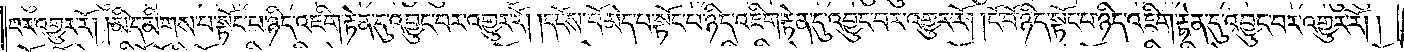བར་འགྱུར་རོ། །མི་དམིགས་པ་སྟོང་པ་ཉིད་འཇིག་རྟེན་དུ་འབྱུང་བར་འགྱུར་རོ། །དངོས་པོ་མེད་པ་སྟོང་པ་ཉིད་འཇིག་རྟེན་དུ་འབྱུང་བར་འགྱུར་རོ། །ངོ་བོ་ཉིད་སྟོང་པ་ཉིད་འཇིག་རྟེན་དུ་འབྱུང་བར་འགྱུར་རོ། །
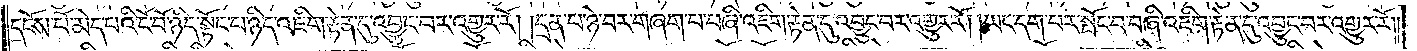དངོས་པོ་མེད་པའི་ངོ་བོ་ཉིད་སྟོང་པ་ཉིད་འཇིག་རྟེན་དུ་འབྱུང་བར་འགྱུར་རོ། །དྲན་པ་ཉེ་བར་གཞག་པ་བཞི་འཇིག་རྟེན་དུ་འབྱུང་བར་འགྱུར་རོ། །ཡང་དག་པར་སྤོང་བ་བཞི་འཇིག་རྟེན་དུ་འབྱུང་བར་འགྱུར་རོ༎
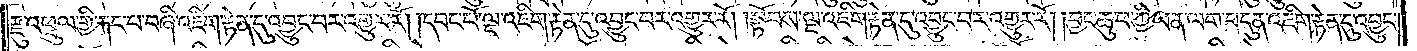རྫུ་འཕྲུལ་གྱི་རྐང་པ་བཞི་འཇིག་རྟེན་དུ་འབྱུང་བར་འགྱུར་རོ། །དབང་པོ་ལྔ་འཇིག་རྟེན་དུ་འབྱུང་བར་འགྱུར་རོ། །སྟོབས་ལྔ་འཇིག་རྟེན་དུ་འབྱུང་བར་འགྱུར་རོ། །བྱང་ཆུབ་ཀྱི་ཡན་ལག་བདུན་འཇིག་རྟེན་དུ་འབྱུང་
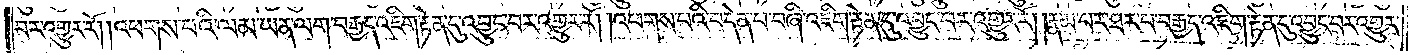བར་འགྱུར་རོ། །འཕགས་པའི་ལམ་ཡན་ལག་བརྒྱད་འཇིག་རྟེན་དུ་འབྱུང་བར་འགྱུར་རོ། །འཕགས་པའི་བདེན་པ་བཞི་འཇིག་རྟེན་དུ་འབྱུང་བར་འགྱུར་རོ། །རྣམ་པར་ཐར་པ་བརྒྱད་འཇིག་རྟེན་དུ་འབྱུང་བར་འགྱུར་
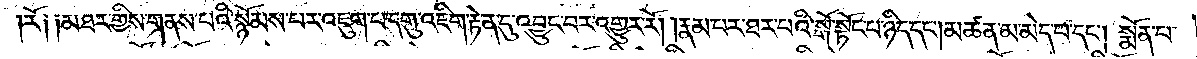རོ༑ ༑མཐར་གྱིས་གནས་པའི་སྙོམས་པར་འཇུག་པ་དགུ་འཇིག་རྟེན་དུ་འབྱུང་བར་འགྱུར་རོ། །རྣམ་པར་ཐར་པའི་སྒོ་སྟོང་པ་ཉིད་དང༌། མཚན་མ་མེད་པ་དང༌། སྨོན་པ་
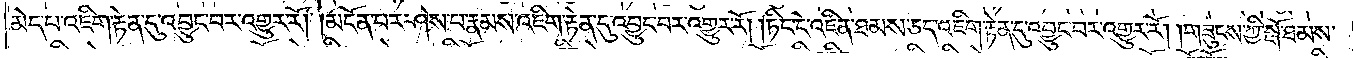མེད་པ་འཇིག་རྟེན་དུ་འབྱུང་བར་འགྱུར་རོ། །མངོན་པར་ཤེས་པ་རྣམས་འཇིག་རྟེན་དུ་འབྱུང་བར་འགྱུར་རོ། །ཏིང་ངེ་འཛིན་ཐམས་ཅད་འཇིག་རྟེན་དུ་འབྱུང་བར་འགྱུར་རོ། །གཟུངས་ཀྱི་སྒོ་ཐམས་
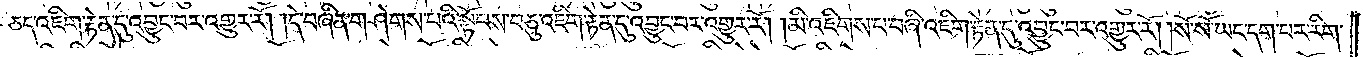ཅད་འཇིག་རྟེན་དུ་འབྱུང་བར་འགྱུར་རོ། །དེ་བཞིན་གཤེགས་པའི་སྟོབས་བཅུ་འཇིག་རྟེན་དུ་འབྱུང་བར་འགྱུར་རོ། །མི་འཇིགས་པ་བཞི་འཇིག་རྟེན་དུ་འབྱུང་བར་འགྱུར་རོ། །སོ་སོ་ཡང་དག་པར་རིག་
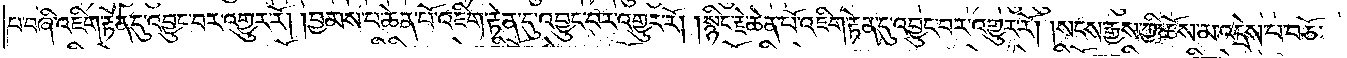པ་བཞི་འཇིག་རྟེན་དུ་འབྱུང་བར་འགྱུར་རོ། །བྱམས་པ་ཆེན་པོ་འཇིག་རྟེན་དུ་འབྱུང་བར་འགྱུར་རོ། །སྙིང་རྗེ་ཆེན་པོ་འཇིག་རྟེན་དུ་འབྱུང་བར་འགྱུར་རོ། །སངས་རྒྱས་ཀྱི་ཆོས་མ་འདྲེས་པ་བཅོ་
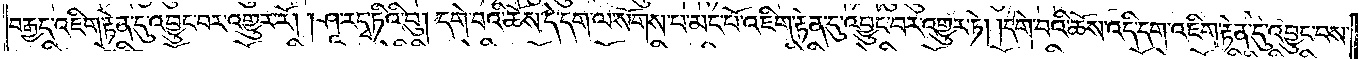བརྒྱད་འཇིག་རྟེན་དུ་འབྱུང་བར་འགྱུར་རོ། །ཤཱ་རདྭ་ཏིའི་བུ། དགེ་བའི་ཆོས་དེ་དག་ལ་སོགས་བ་མང་པོ་འཇིག་རྟེན་དུ་འབྱུང་བར་འགྱུར་ཏེ། །དགེ་བའི་ཆོས་འདི་དག་འཇིག་རྟེན་དུ་འབྱུང་བས་
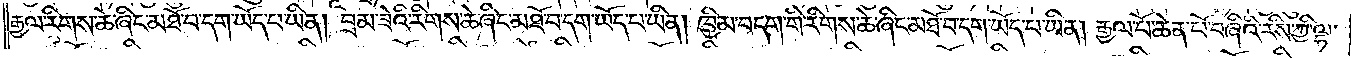རྒྱལ་རིགས་ཆེ་ཞིང་མཐོ་བ་དག་ཡོད་པ་ཡིན། བྲམ་ཟེའི་རིགས་ཆེ་ཞིང་མཐོ་བ་དག་ཡོད་པ་ཡིན། ཁྱིམ་བདག་གི་རིགས་ཆེ་ཞིང་མཐོ་བ་དག་ཡོད་པ་ཡིན། རྒྱལ་པོ་ཆེན་པོ་བཞིའི་རིས་ཀྱི་ལྷ་
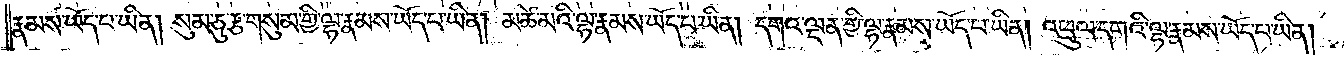རྣམས་ཡོད་པ་ཡིན། སུམ་ཅུ་རྩ་གསུམ་གྱི་ལྷ་རྣམས་ཡོད་པ་ཡིན། མཚེ་མའི་ལྷ་རྣམས་ཡོད་བ་ཡིན། དགའ་ལྡན་གྱི་ལྷ་རྣམས་ཡོད་པ་ཡིན། འཕྲུལ་དགའི་ལྷ་རྣམས་ཡོད་པ་ཡིན།
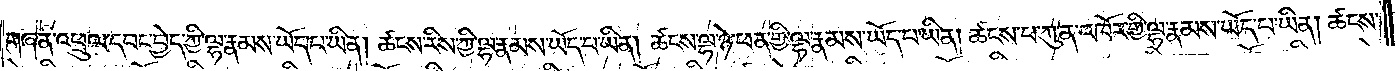གཞན་འཕྲུལ་དབང་བྱེད་ཀྱི་ལྷ་རྣམས་ཡོད་པ་ཡིན། ཚངས་རིས་ཀྱི་ལྷ་རྣམས་ཡོད་པ་ཡིན། ཚངས་ལྷ་ཉེ་ཕན་གྱི་ལྷ་རྣམས་ཡོད་པ་ཡིན། ཚངས་པ་ཀུན་འཁོར་གྱི་ལྷ་རྣམས་ཡོད་པ་ཡིན། ཚངས་
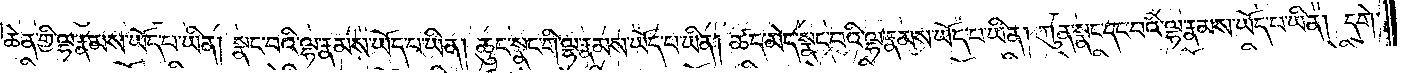ཆེན་གྱི་ལྷ་རྣམས་ཡོད་པ་ཡིན། སྣང་བའི་ལྷ་རྣམས་ཡོད་པ་ཡིན། ཆུང་སྣང་གི་ལྷ་རྣམས་ཡོད་པ་ཡིན། ཚད་མེད་སྣང་བའི་ལྷ་རྣམས་ཡོད་པ་ཡིན། ཀུན་སྣང་དང་བའི་ལྷ་རྣམས་ཡོད་པ་ཡིན། དགེ་
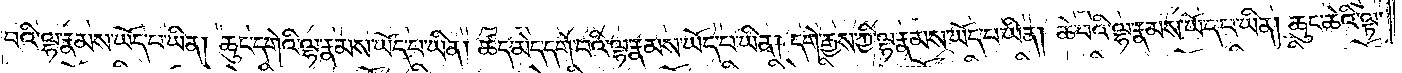བའི་ལྷ་རྣམས་ཡོད་པ་ཡིན། ཆུང་དགེའི་ལྷ་རྣམས་ཡོད་པ་ཡིན། ཚད་མེད་དགེ་བའི་ལྷ་རྣམས་ཡོད་པ་ཡིན། དགེ་རྒྱས་ཀྱི་ལྷ་རྣམས་ཡོད་པ་ཡིན། ཆེ་བའི་ལྷ་རྣམས་ཡོད་པ་ཡིན། ཆུང་ཆེའི་ལྟ་
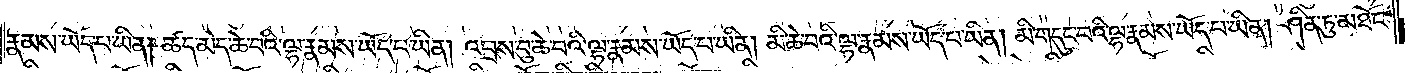རྣམས་ཡོད་པ་ཡིན། ཚད་མེད་ཆེ་བའི་ལྷ་རྣམས་ཡོད་པ་ཡིན། འབྲས་བུ་ཆེ་བའི་ལྷ་རྣམས་ཡོད་པ་ཡིན། མི་ཆེ་བའི་ལྷ་རྣམས་ཡོད་པ་ཡིན། མི་གདུང་བའི་ལྷ་རྣམས་ཡོད་པ་ཡིན། ཤིན་ཏུ་མཐོང་
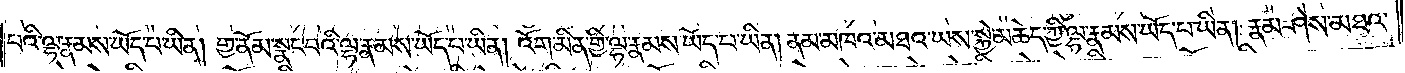པའི་ལྷ་རྣམས་ཡོད་པ་ཡིན། གྱ་ནོམ་སྣང་བའི་ལྷ་རྣམས་ཡོད་པ་ཡིན། འོག་མིན་གྱི་རྣམས་ཡོད་པ་ཡིན། ནམ་མཁའ་མཐའ་ཡས་སྐྱེ་མཆེད་ཀྱི་ལྷ་རྣམས་ཡོད་པ་ཡིན། རྣམ་ཤེས་མཐའ་
